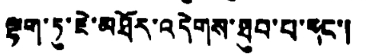ལྷག་ཏུ་ཇེ་མཐོར་འདེགས་ཐུབ་པ་དང་།
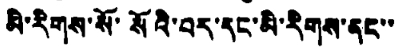མི་རིགས་སོ་སོའི་བར་དང་མི་རིགས་ནང་་
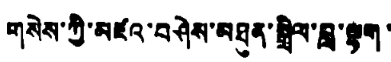གསེས་ཀྱི་མཛའ་བཤེས་མཐུན་སྒྲིལ་བླ་ལྷག་
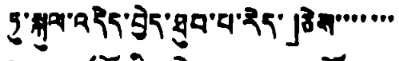ཏུ་སྐུལ་འདེད་བྱེད་ཐུབ་པ་རེད་」ཅེས་་་་་་་
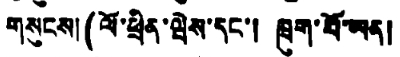གསུངས། (ལོ་ཕྲིན་ཝེས་དང་། ཁྲག་པོ་ཡན།
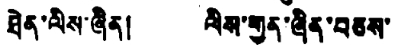ཐེན་ལིས་ཞིན། ལིས་གྱན་ཞིན་བཅས་
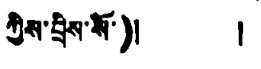ཀྱིས་བྲིས་སོ་)། །
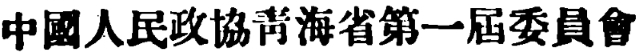中國人民政協靑海省第一屆委員會
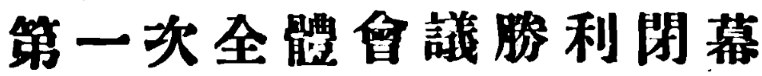第一次全體會議勝利閉幕
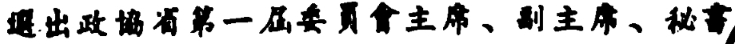選出政協省第一屆委員會主席、副主席、祕書
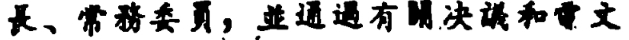長、常務委員，並通過有關決議和電文
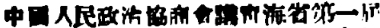中國人民政治協商會議靑海省第一屆
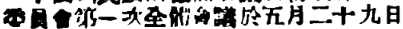委員會第一次全體會議於五月二十九日
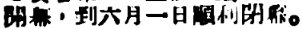開幕，到六月一日順利閉幕。
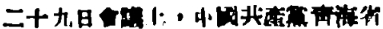二十九日會議上，中國共產黨靑海省
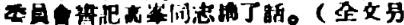委員會書記高峯同志講了話。（全文另
